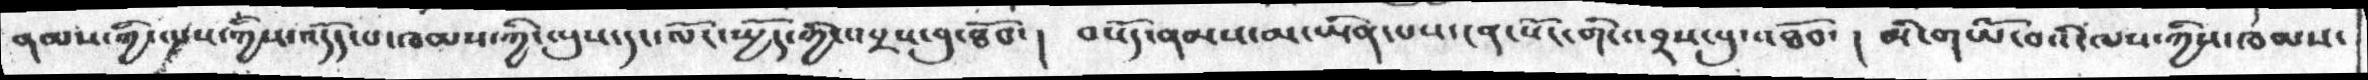ནམས་ཀྱི་ལས་ཀྱིས་འདོད་པ་ཁམས་ཀྱི་ལུས་དང་ལོངས་སྤྱོད་ཀྱི་འབྲས་བུ་ཐོབ་།  བསོད་ནམས་མ་ཡིན་པས་ངན་སོང་གི་འབྲས་བུ་འཐོབ་། མི་གཡོ་བའི་ལས་ཀྱིས་ཁམས་
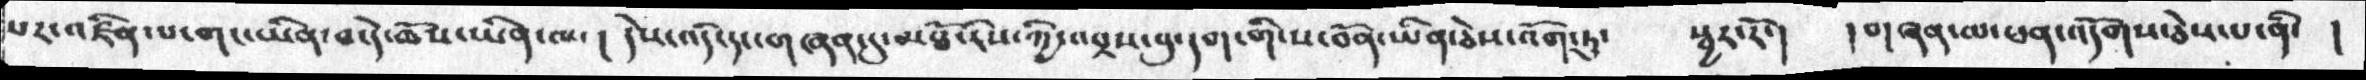པར་འཛིན་པ་གང་ཡིན་བ་དེ་ཆོས་ཡིན་ལ་།  དེས་འདི་དང་གཞན་དུ་མཐོ་རིས་ཀྱི་འབྲས་བུ་དག་གི་ས་བོན་ཡིན་ཅེས་འོག་ཏུ་   སྦྱར་རོ་།  །གཞན་ལ་ཕན་འདོགས་ཅེས་པ་ནི་  །
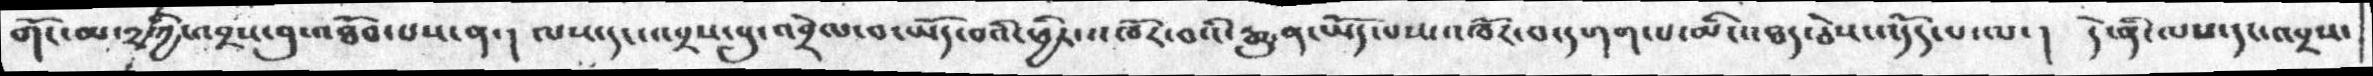གོང་མ་༢ཀྱི་འབྲས་བུ་འཐོབ་པས་ན་། ལས་དང་འབྲས་བུ་འབྲེལ་བ་ཡོད་བའི་ཕྱིར་འཁོར་བའི་རྒྱུན་ཡོད་པས་འཁོར་བ་དགག་པ་མི་འཐད་ཅེས་འདོད་པ་ལ་།  དེ་ནི་ལས་དང་འབྲས་
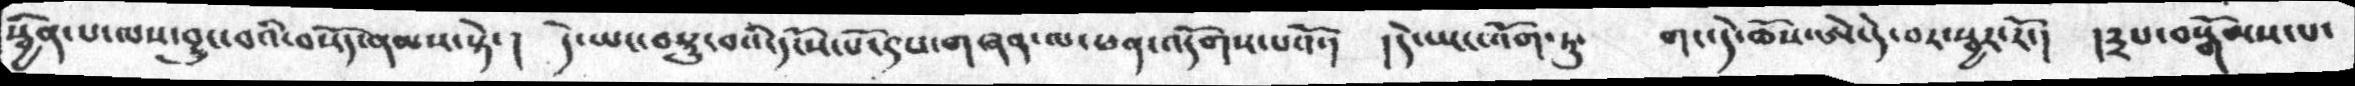སྦྱིན་པ་ལས་བྱུང་བའི་བསོད་ནམས་སྟེ་།  དེ་ཡང་བསྡུ་བའི་དངོས་པོ་༩པ་གཞན་ལ་ཕན་འདོགས་པའོ་། །དེ་ཡང་འོག་ཏུ་   གང་དེ་ཆོས་ཨེ་དེ་བར་སྦྱར་རོ་།  །༣པ་བསྒོམས་པ་
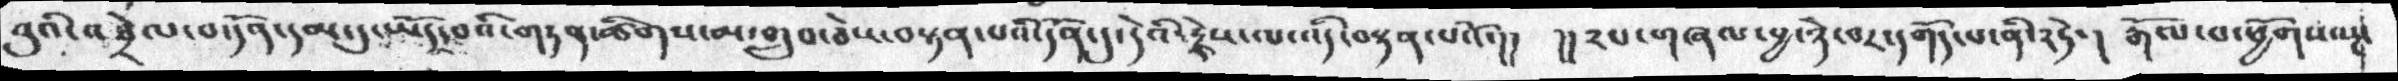བུའི་འབྲེལ་བ་དོན་དམ་དུ་ཡོད་བའི་གཏན་ཚིགས་མ་གྲུབ་ཅེས་བསྟན་པའི་དོན་དུ་དེའི་རྗེས་ལ་འདི་བསྟན་པའོ་།།  །།༢པ་གཞལ་བྱ་ཉེ་བར་དགོད་པ་ནི་༢ཏེ་།  རྒོལ་བ་ཕྱོགས་སྔ་
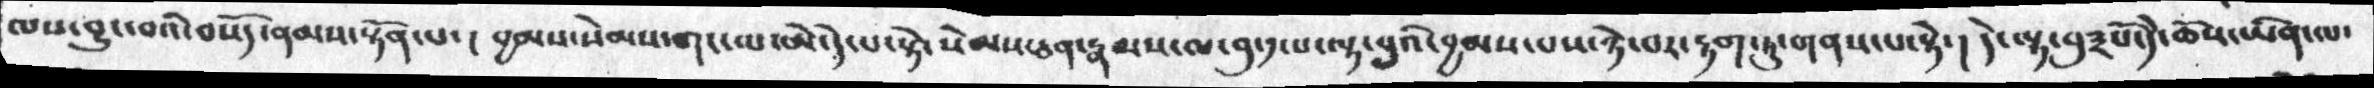ལས་བྱུང་བའོ་བསོད་ནམས་སྟོན་པ་།  བྱམས་སེམས་གང་ལ་ཨེ་དེ་པ་སྟེ་སེམས་ཅན་རྣམས་ལ་བུ་༡་པ་ལྟ་བུའི་བྱམས་པས་ཉེ་བར་རྟག་ཏུ་གནས་པ་སྟེ་།  དེ་ལྟ་བུ༣པོ་དེ་ཆོས་ཡིན་ལ་
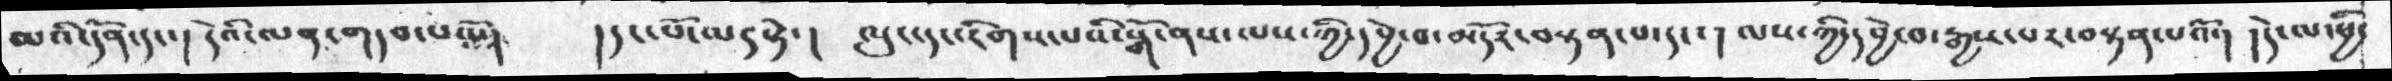མའི་དོན་དང་། དེའི་ལན་གདབ་པ་འོ། །དང་པོ་མདདསྟེ་། ལུང་དང་རིགས་པའི་སྒོ་ནས་ལས་ཀྱི་དབྱེ་བ་མདོར་བསྟན་པ་དང་། ལས་ཀྱི་དབྱེ་བ་རྒྱས་པར་བསྟན་པའོ་། །དེ་ལ་ཕྱི་
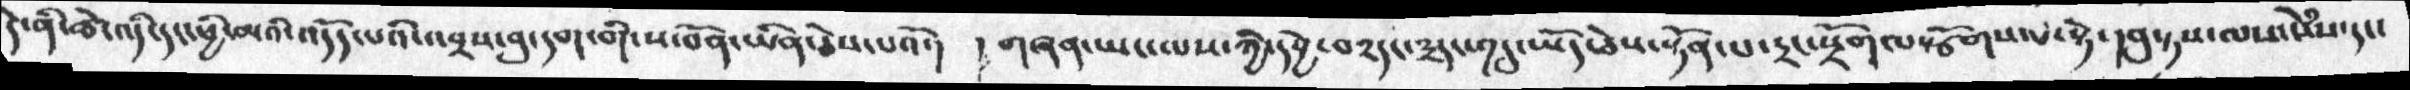དེ་ནི་ཚེ་འདི་དང་ཕྱི་མའི་འདོད་པའི་འབྲས་བུ་དག་གི་ས་བོན་ཡིན་ཅེས་པའོ་།  །གཞན་ཡང་ལས་ཀྱི་དབྱེ་བ༢དང་༣དང་༡དུ་ཡོད་ཅེས་སྟོན་པ་དྲང་སྲོགལསྩོགས་པ་སྟེ་དབུ་ཏས་ལས་སེཾས་དང་
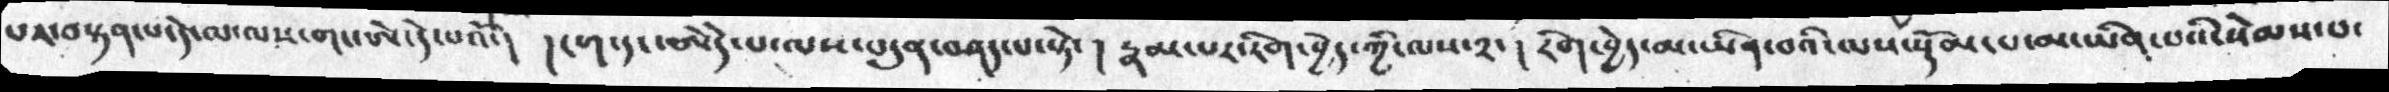པར་བསྟན་པ་དེ་ལ་ལས་གང་ཨེ་དེ་པའོ་།  །ངག་དང་ཨེདེ་པ་ལས་བདུན་བཤད་པ་སྟེ་། རྣམ་པ་རིག་བྱེད་ཀྱི་ལས་༢་། རིག་བྱེད་མ་ཡིན་བའི་ལས་སྡོམ་པ་མ་ཡིན་པའི་སེམས་པ་
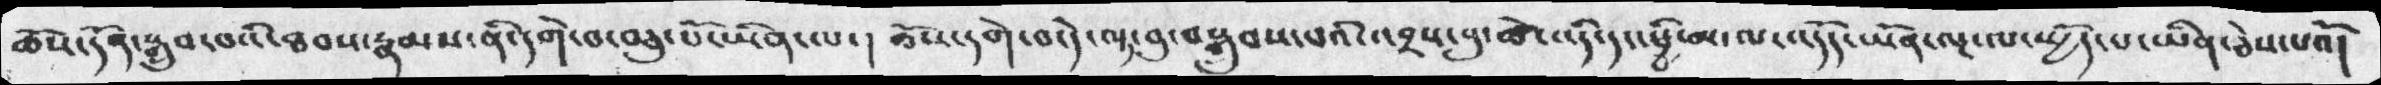ཆོས་དོན་སྒྲུབ་པའི་ཐབས་རྣམས་ནི་དགེ་བ་བཅུ་པོ་ཡིན་པ་།  ཆོས་དགེ་བ་དེ་ལྟ་བུ་བསྒྲུབས་པའི་འབྲས་བུ་ཚེ་འདི་དང་ཕྱི་མ་ལ་འདོད་ཡོན་ལྔ་ལ་སྤྱོད་པ་ཡིན་ཅེས་པའོ།
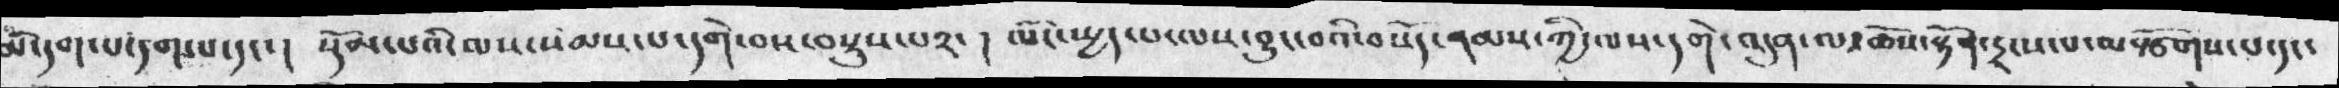མི་དག་པ་དག་པ་དང་། སྡོམ་པའི་ལས་སེམས་པ་དགེ་བས་བསྡུས་པ༢་ ། ལོང་སྤྱད་པ་ལས་བྱུང་བའི་བསོད་ནམས་ཀྱི་ལས་དགེ་འདུན་ལ་ཆོས་སྟོན་དྲངས་པ་མསྩོགས་པ་དང་
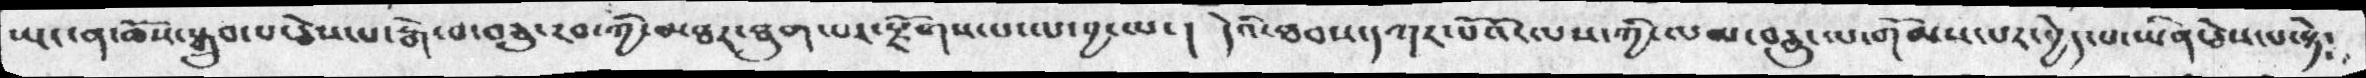ཡང་ན་ཆོས་སྒྲུབ་པ་ཅེས་པ་རྒེ་བ་བཅུ་རབ་ཀྱི་མཐར་ཐུག་པར་སྫོགས་པ་ལ་བྱ་ཡང་།  དེའི་ཐབས་དཀར་པོའོ་ལས་ཀྱི་ལམ་བཅུ་ལ་གོམས་པར་བྱེད་པ་ཡིན་ཅེས་པ་སྟེ་
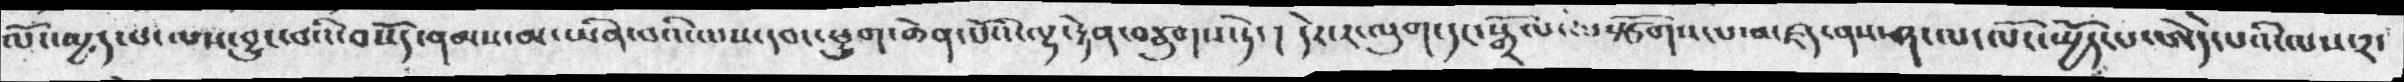ལངོ་སྤྱད་པ་ལས་བྱུང་བའི་བསོད་ནམས་མ་ཡིན་པའི་ལས་དབང་ཕྱུག་ཆེན་པོའི་ལྷ་རྟེན་བཅུགས་ཏེ་ ། དེར་ར་ལུག་དང་སྒྲོལ་ལསྩོགས་པ་མཛད་ནས་ཤ་ལ་ལོང་སྤྱོད་པ་ཨེདེ་པའི་ལས་༢་
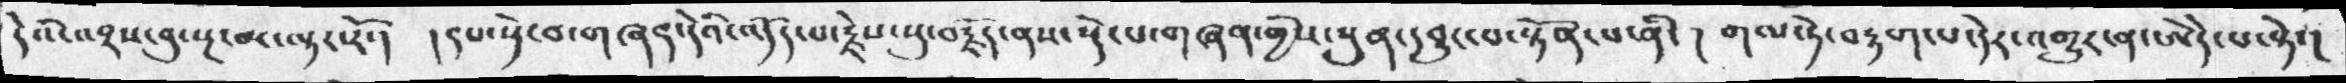དེའི་འབྲས་བུ་སྔ་མ་ལྟར་རོ་། །༩པ་སྡེ་བ་གཞན་དེའི་འདོད་པ་རྗེས་སུ་བརྗོད་ནས་སྡེ་པ་གཞན་གྱིས་སུན་དབྱུང་པ་སྟོན་པ་ནི་ ། གལ་ཏེ་བརྟག་པ་དེར་འགྱུར་ན་ཨེདེ་པ་སྟེ་
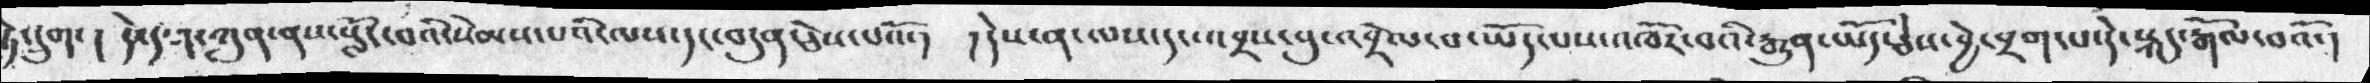ཏེ་དྲུག་ ། དེ་དག་ཀུན་ནས་སློང་བའི་སེམས་པའི་ལས་དང་བདུན་ཅེས་པའོ་། །དེས་ན་ལས་དང་འབྲས་བུ་འབྲེལ་བ་ཡོད་པས་འཁོར་བའི་རྒྱུན་ཡོད་ཅེས་བྱེ་བྲག་པ་དེ་སྐད་རྒོལ་བའོ་།
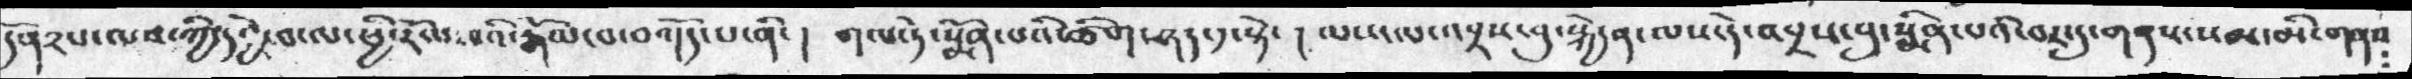དོན༢པ་ལས་ཀྱི་དབྱེ་བ་ལ་ཕྱི་རོལ་བའི་རྒོལ་བ་བཀོད་པ་ནི་ ། གལ་ཏེ་སྨོན་པའི་ཚིག་ཤད་༡་སྟེ་ ། ལས་ལ་འབྲས་བུ་སྐྱེ་ན་ལས་དེ་འབྲས་བུ་སྨིན་པའི་བར་དུ་གནས་སམ་མི་གནས
